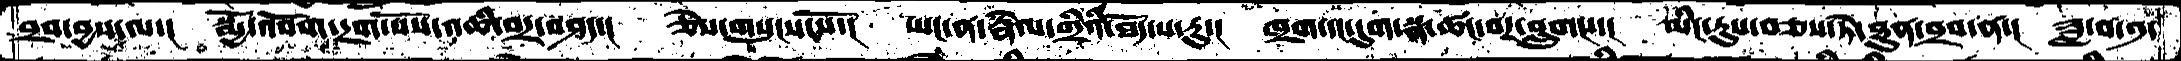བྲབ་བྱ་ལ་།  སྨྱོ་འབོག་དྲག་པོས་འཆི་བར་བཤད་།  ཅེས་གསུངས་སོ་།  ཡང་ན་རྣེལ་གྲིའི་ཐོད་པ་རུ་།  ཁྲག་དང་དུག་སྣ་ཚང་བར་བླུགས་།  མིང་རུས་བཅས་ཏེ་ཐུན་བྲབ་ན་།  ཟླ་བ་༡་
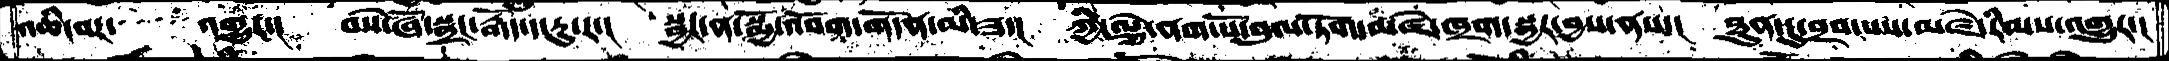འཆིང་བར་འགྱུར་།  བསེ་ཞོ་སྦྲང་རྒོད་ད་རུ་ར་།  སྦྱར་ན་སྨྱོ་འབོག་གདོན་མི་ཟད།  ཀྱི་ལྕེ་ནག་པོ་བུལ་ཏོག་མཛེ་ཁྲག་སྦྱར་བྱས་ནས་།  ཐུན་དུ་བྲབ་པས་མཛེ་རིམས་འགྱུར་།
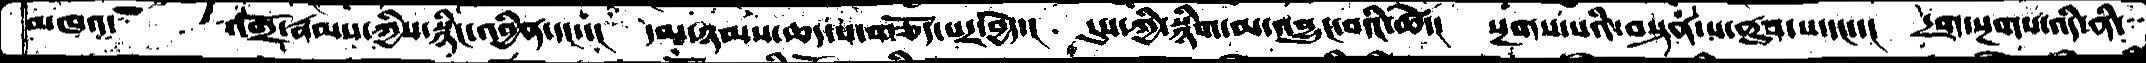མཁའ་    འགྲོ་རྣམས་ཀྱིས་སྙིང་འབྱིན་དང་།  དམ་ཉམས་ཆད་པ་གཅོད་པར་བྱེད་།  དུས་ཀྱི་སྙིག་མ་འབྱུང་བའི་ཚེ་།  སྔགས་པའི་བསྟན་པ་ནུབ་པ་དང་་།  དྲག་སྔགས་འདི་ནི་
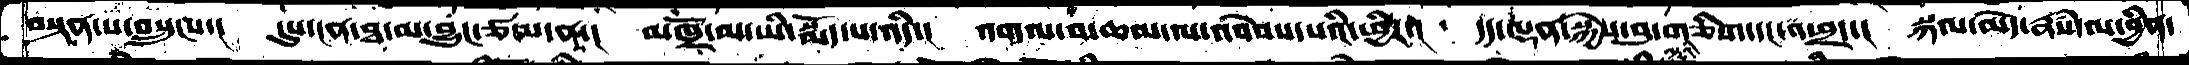བསྟན་པ་བསྲུངས་།  དུས་ངན་ཐ་མ་བྱུང་ཙམ་ན་།  མཁྲོ་མ་ཡི་སྨོད་པ་འདི་།  འགལ་བ་ཆམ་ལ་འབེབས་པའི་ཕྱིར་།  དད་ལྡན་སྐྱེས་བུ་གཅིག་དང་འཕྲད་།  སྐལ་མེད་རྣཾས་ལ་བྱིན་
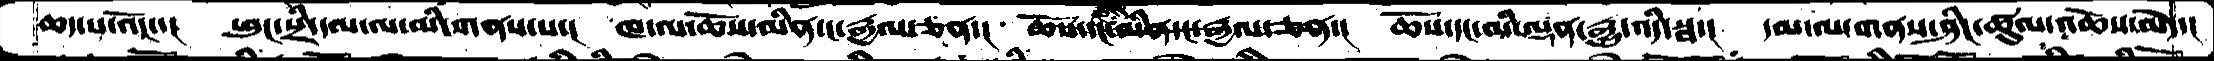ཆད་པ་འོང་་།  ཕུང་སྲི་དམ་ལ་མི་གནས་པ་།  ཁ་ལ་ཆོས་མིན་ང་རྒྱལ་ཅན་།  ཆོས་དང་མིན་ང་རྒྱལ་ཅན་།  ཆོས་དང་མི་ལྡན་རྒྱུ་འདི་སྦ་།  དམ་ལ་གནས་ཤིང་ཚུལ་འཆོས་མེད་།
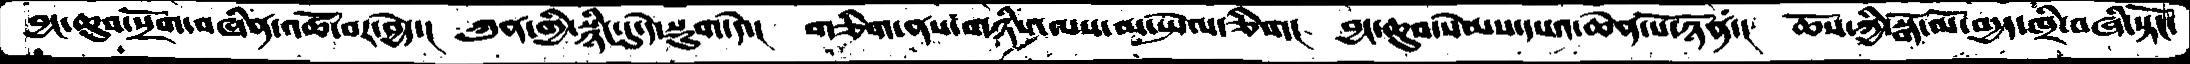བྱང་ཆུབ་སྲོག་བཞིན་འཚོ་བར་བྱེད་།  ཀུན་གྱི་སྙིང་དུ་དེ་སྡུག་དེ་།  གཅིག་ནས་གཉིས་ལས་མ་སྤེལ་ཅིག།  བྱང་ཆུབ་སེམས་དཔའ་ཆེན་པོ་ཉོན་།  ཆོས་ཀྱིསྒོ་མོ་བདྱད་ཁྲི་བཞི་སྟོང་
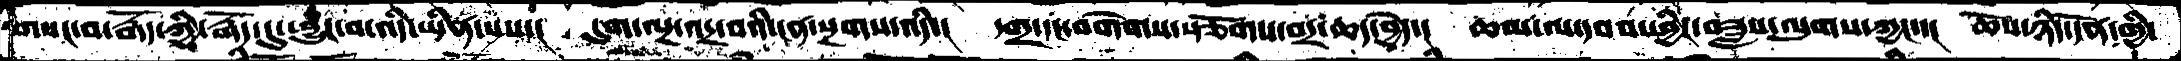གསང་བ་རྒོད་ཀྱི་རྒོད་དུ་ཕྱུང་བ་འདི་ཡིན་པས་།  དུག་ལྔ་འདྲ་བའི་ངན་སྔགས་འདི་།  དགྲ་དང་བགེགས་སྩོགས་བར་ཆད་བྱེད་།  ཆམ་ལ་དབབ་ཕྱིར་བཟླས་ལུགས་ཀྱང་།  ཆོས་ཉིད་དོན་གྱི་
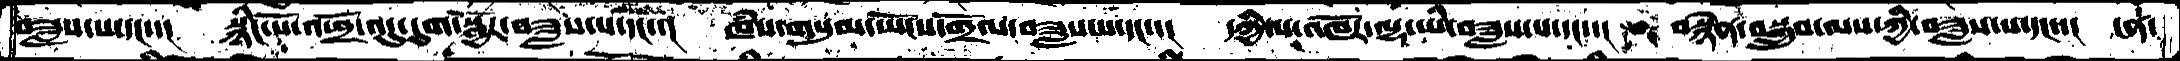བཟླས་པ་དང་་།  སྙིང་པོ་འཕྲོ་འདུ་དུག་སྦྱོར་བཟླས་པ་དངོས་།  ཁཾས་གསུམ་ཡོངས་གྲོལ་བཟླས་པ་དང་་།  དཀྱིལ་འཁོར་ལྷ་ཡི་བཟླས་པ་དང་་།   བསྙེན་བསྒྲུབ་ལས་ཀྱི་བཟླས་པ་དང་་།  །ན་
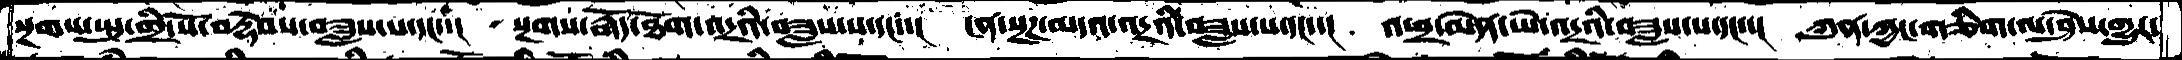སྔགས་སྤུ་གྲི་སོ་བརྡེབས་བཟླས་པདང་་།  སྔགས་རྒོད་ཐོག་འདྲའི་བཟླས་པ་དང་་།  ངན་སྔཌ་མདའ་འདྲའི་བཟླས་པ་དང་་།  འཕྲ་མེན་ཡེ་འདྲའི་བཟླས་པ་དང་་།  ཀུན་ཀྱང་གཅིག་ལ་ཤེེས་གྱུར་
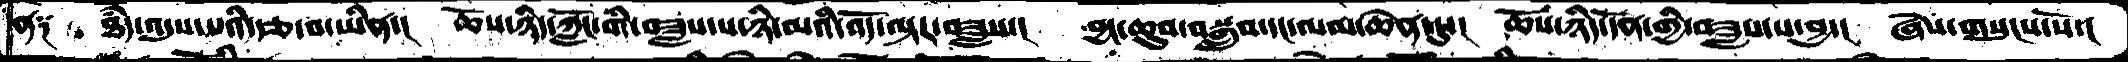ན༑ ཐཾད་འདུས་པའི་རྩ་བ་ཡིན་།  ཆོས་ཉིད་ཀློང་གི་བཟླས་པ་ཉི་མའི་འོད་ལྟར་བཟླས་།  བྱང་ཆུབ་བསྒྲུབ་དང་ལམ་ཆེན་དུ་།  ཆོས་ཉིད་དོན་གྱི་བཟླས་པ་བྱ་།  ཞེས་གསུངས་སོ་།
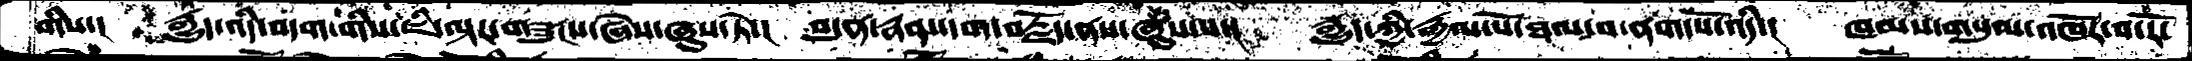གིས་།   རྒྱུད་འདི་བདག་གིས་ཇི་ལྟར་གཟུངས་ཞེས་ཞུས་ཏེ་།  བདུན་རྣམ་དག་བརྗོད་ནས་ཞུས་པ་།   རྒྱུད་ཀྱི་རྒྱལ་པོ་ཐལ་བ་ནག་པོ་འདི་།  ཁམས་གསུམ་འཁོར་བ་རོ་
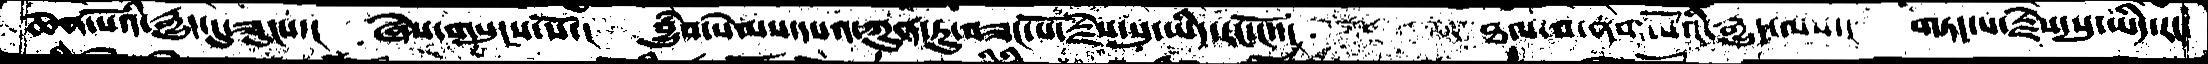ཆེན་པོའི་རྒྱུད་དུ་ཟུངས་།  ཞེས་གསུངས་སོ་།  བྱུཾབ་སེམས་དཔའ་ཀུན་ཏུ་བཟང་པོ་རྗེས་སུ་ཡིད་རང་ངོ་་།      ཐལ་བ་ནག་པོའི་རྒྱུད་ལས་།  གཏད་པ་རྗེས་སུ་ཡིད་རང་
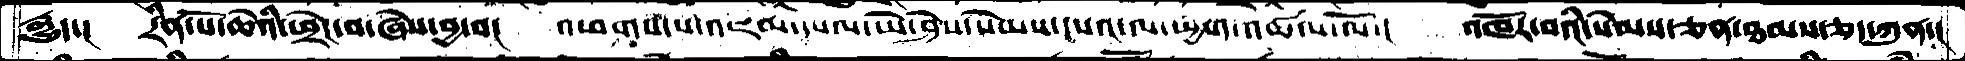རྒྱུད་།   རིན་པོ་ཆེའི་ཕྲེང་བ་ཞེས་བྱ་བ།    འཕགས་པ་འཇམ་དཔལ་ཡེ་ཤེས་སེམས་དཔའ་ལ་ཕྱག་འཚལ་ལོ་།   འཁོར་བའི་སེམས་ཅན་ཐམས་ཅད་ཀུན་།
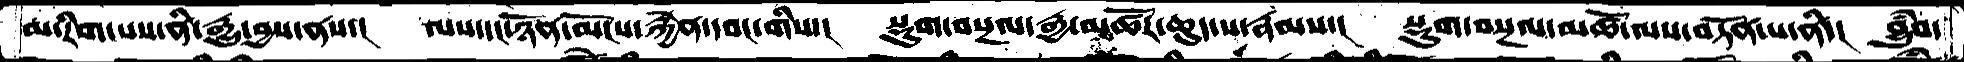མ་རིག་པས་ནི་རྒྱུ་བྱས་ནས་།  ལས་དང་ཉོན་མོངས་རྐྱེན་དབང་གིས་།  སྡུག་བསྔལ་རྒྱ་མཚོར་ཆུད་པ་རྣམས་།   སྡུག་བསྔལ་མཚོ་ལས་བཏོན་པ་ནི་།  བྱུཾབ་
